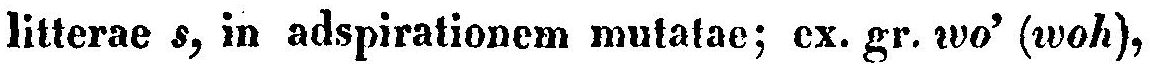litterae s, in adspirationem mutatae; ex. gr. wo' (woh),
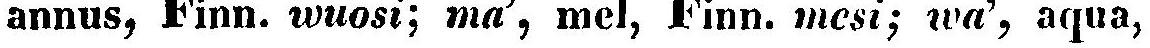annus, Finn. wuosi; ma', mel, Finn. mesi; wa', aqua,
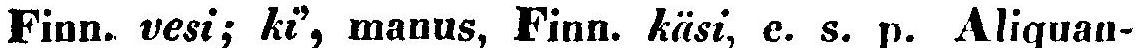Finn. vesi; ki', manus, Finn. käsi, e. s. p. Aliquan-
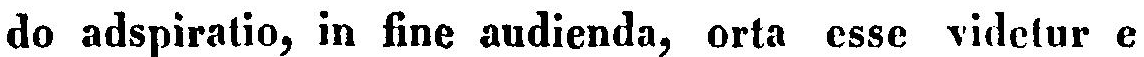do adspiratio, in fine audienda, orta esse videtur e
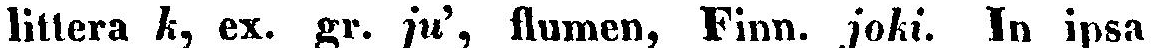littera k, ex. gr. ju', flumen, Finn. joki. In ipsa
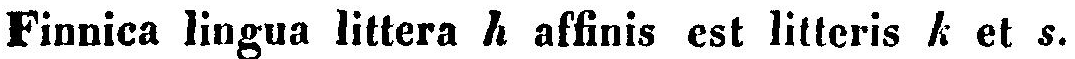Finnica lingua littera h affinis est litteris k et s.
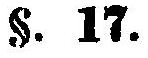§. 17.
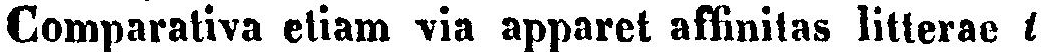Comparativa etiam via apparet affinitas litterae t
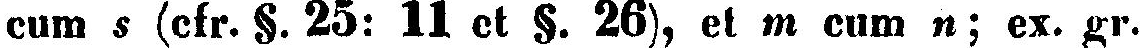cum s (cfr. §. 25: 11 et §. 26), et m cum n; ex. gr.
